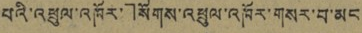པའི་འཕྲུལ་འཁོར་」སོགས་འཕྲུལ་འཁོར་གསར་བ་མང
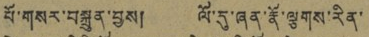པོ་གསར་བསྐྲུན་བྱས། ལོ་དུ་ཞན་རྣོ་ལྕགས་རིན་
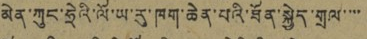མེན་ཀུང་ཧྲེའི་ལོ་ཡ་རུ་ཁག་ཆེན་པའི་ཐོན་སྐྱེད་གྲལ་་་་
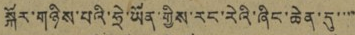སྐོར་གཉིས་པའི་ཧྲེ་ཡོན་གྱིས་རང་རེའི་ཞིང་ཆེན་དུ་་་་་
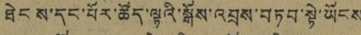ཐེངས་དང་པོར་ཚོད་ལྟའི་སྒོས་འབྲས་བཏབ་སྟེ་ཡོངས
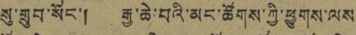སུ་གྲུབ་སོང་། རྒྱ་ཆེ་བའི་མང་ཚོགས་ཀྱི་ཕྱུགས་ལས་
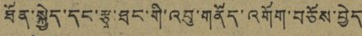ཐོན་སྐྱེད་དང་རྩྭ་ཐང་གི་འབུ་གནོད་འགོག་བཅོས་བྱེད
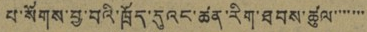པ་སོགས་བྱ་བའི་ཁྲོད་དུའང་ཚན་རིག་ཐབས་ཚུལ་་་་་་་
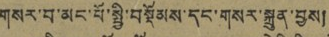གསར་བ་མང་པོ་སྤྱི་བསྡོམས་དང་གསར་སྐྲུན་བྱས།
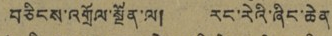བཅིངས་འགྲོལ་སྔོན་ལ། རང་རེའི་ཞིང་ཆེན་
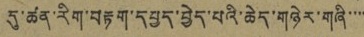དུ་ཚན་རིག་བརྟག་དཔྱད་བྱེད་པའི་ཆེད་གཉེར་གཞི་་་་
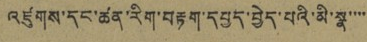འཛུགས་དང་ཚན་རིག་བརྟག་དཔྱད་བྱེད་པའི་མི་སྣ་་་་
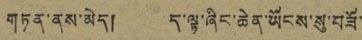གཏན་ནས་མེད། ད་ལྟ་ཞིང་ཆེན་ཡོངས་སུ་བཟོ་
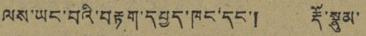ལས་ཡང་བའི་བརྟག་དཔྱད་ཁང་དང་། རྡོ་སྣུམ་
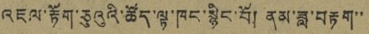འཇལ་རྟོག་ཅུའུའི་ཚོད་ལྟ་ཁང་སྙིང་པོ། ནམ་ཟླ་བརྟག་་
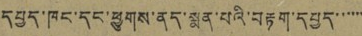དཔྱད་ཁང་དང་ཕྱུགས་ནད་སྨན་པའི་བརྟག་དཔྱད་་་་་་
